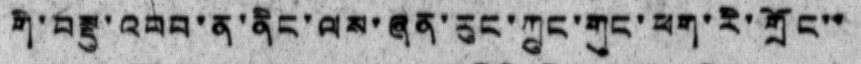གི་བསྡུ་འབབ་ན་ནིང་ལས་ཞན་རུང་ཀྲུང་གུང་ཕག་རི་གྲོང་་
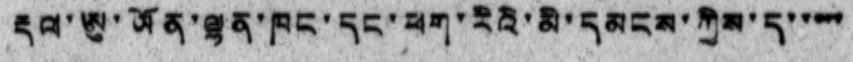རྡལ་ཨུ་ཡོན་ལྷན་ཁང་དང་ཕག་རིའི་མི་དམངས་ཀྱིས་ད་་་་་
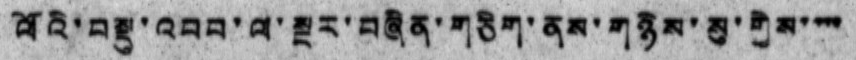ལོའི་བསྡུ་འབབ་ལ་སྔར་བཞིན་གཅིག་ནས་གཉིས་སུ་གྱེས་་་་
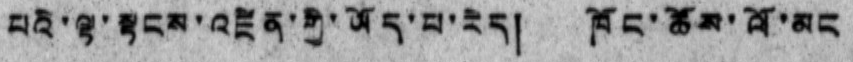པའི་ལྟ་སྟངས་འཛིན་གྱི་ཡོད་པ་རེད། ཁོང་ཚོས་ལོ་མང
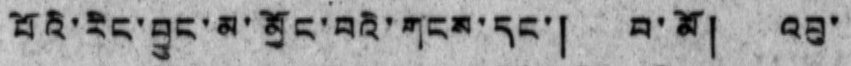པོའི་རིང་བྱུང་མ་མྱོང་བའི་གངས་དང་། བ་མོ། འབུ་
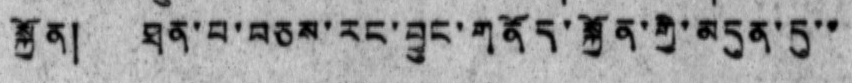སྐྱོན། ཐན་པ་བཅས་རང་བྱུང་གནོད་སྐྱོན་གྱི་མདུན་དུ་་
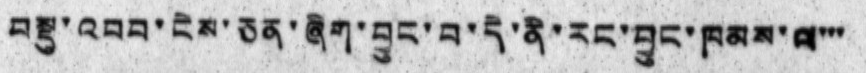བསྡུ་འབབ་ངེས་ཅན་ཞིག་བྱུང་བ་དེ་ནི་རང་བྱུང་ཁམས་ལ་་་
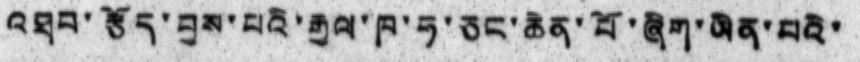འཐབ་རྩོད་བྱས་པའི་རྒྱལ་ཁ་ཧ་ཅང་ཆེན་པོ་ཞིག་ཡིན་པའི་
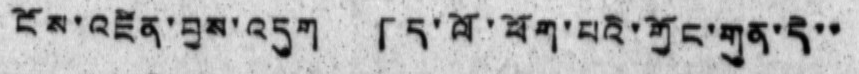ངོས་འཛིན་བྱས་འདུག 「ད་ལོ་ཕོག་པའི་གྱོང་གུན་དེ་་
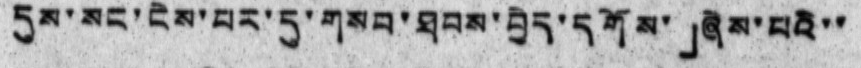དུས་སང་ངེས་པར་དུ་གསབ་ཐབས་བྱེད་དགོས་」ཞིས་པའི་་
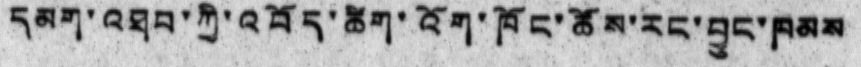དམག་འཐབ་ཀྱི་འབོད་ཚིག་འོག་ཁོང་ཚོས་རང་བྱུང་ཁམས
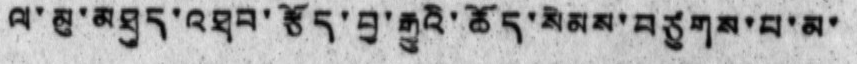ལ་མུ་མཐུད་འཐབ་རྩོད་བྱ་རྒྱུའི་ཆོད་སེམས་བཙུགས་པ་མ་
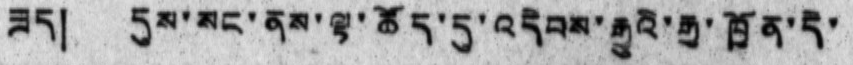ཟད། དུས་སང་ནས་ལྟ་ཚོད་དུ་འདེབས་རྒྱུའི་རྒྱ་ཁྱོན་དེ་
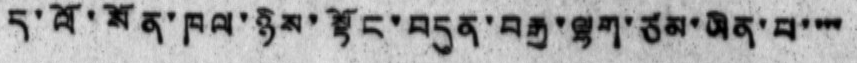ད་ལོ་སོན་ཁལ་ཉིས་སྟོང་བདུན་བརྒྱ་ལྷག་ཙམ་ཡིན་པ་་་་
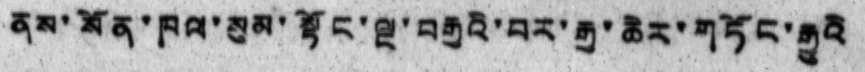ནས་སོན་ཁལ་སུམ་སྟོང་ལྔ་བརྒྱའི་བར་རྒྱ་ཆེར་གཏོང་རྒྱུའི
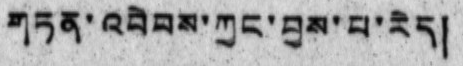གཏན་འབེབས་ཀྱང་བྱས་པ་རེད།
